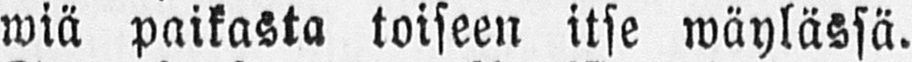wiä paikasta toiseen itse wäylässä.
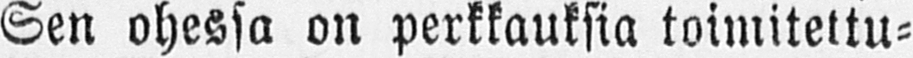Sen ohessa on perkkauksia toimitettu-
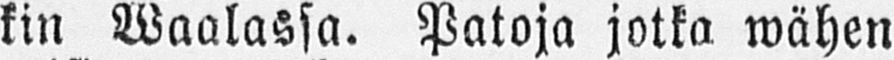kin Waalassa. Patoja jotka wähen
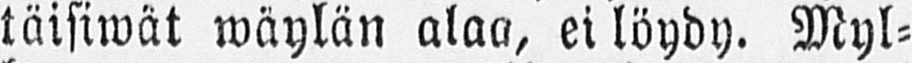täisiwät wäylän alaa, ei löydy. Myl-
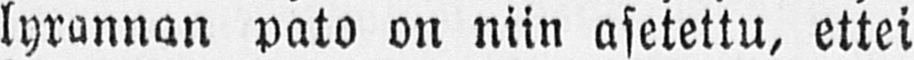lyrannan pato on niin asetettu, ettei
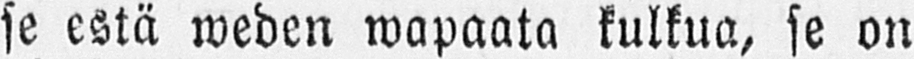se estä weden wapaata kulkua, se on
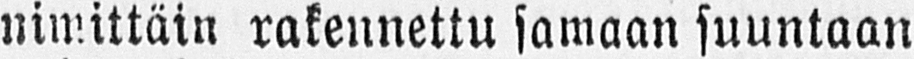nimittäin rakennettu samaan suuntaan
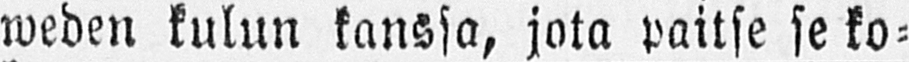weden kulun kanssa, jota paitse se ko-
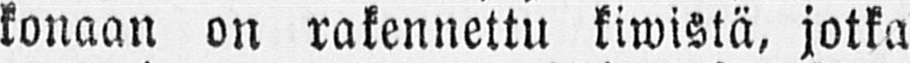konaan on rakennettu kiwistä, jotka
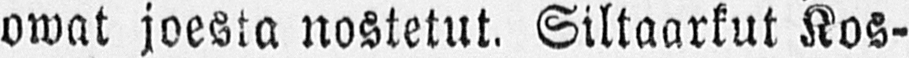owat joesta nostetut. Siltaarkut Kos-
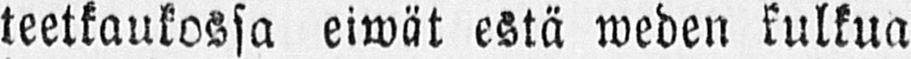teetkaukossa eiwät estä weden kulkua
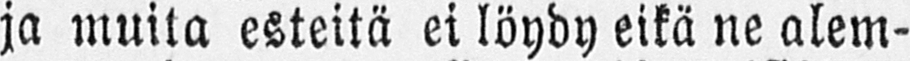ja muita esteitä ei löydy eikä ne alem-
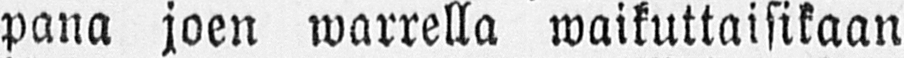pana joen warrella waikuttaisikaan
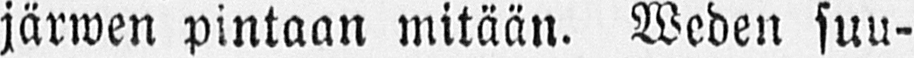järwen pintaan mitään. Weden suu-
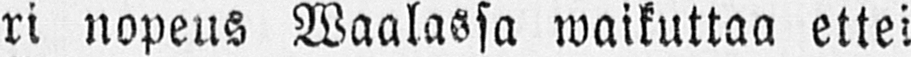ri nopeus Waalassa waikuttaa ettei
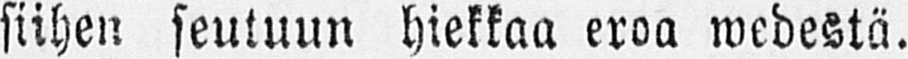siihen seutuun hiekkaa eroa wedestä.
